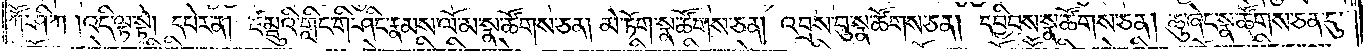ཀཽ་ཤི་ཀ །འདི་ལྟ་སྟེ། དཔེར་ན། ཛམྦུའི་གླིང་གི་ཤིང་རྣམས་ལོ་མ་སྣ་ཚོགས་ཅན། མེ་ཏོག་སྣ་ཚོགས་ཅན། འབྲས་བུ་སྣ་ཚོགས་ཅན། དབྱིབས་སྣ་ཚོགས་ཅན། ཆུ་ཞེང་སྣ་ཚོགས་ཅན་དུ་
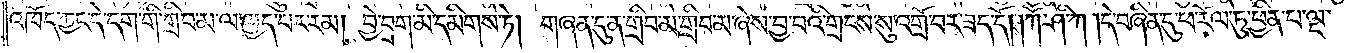འཁོད་ཀྱང་དེ་དག་གི་གྲི་བ་མ་ལ་ཁྱད་པར་རམ། བྱེ་བྲག་མི་དམིགས་ཏེ། གཞན་དུ་ན་གྲིབ་མ་གྲིབ་མ་ཞེས་བྱ་བའི་གྲངས་སུ་འགྲོ་བར་ཟད་དོ། །ཀཽ་ཤི་ཀ །དེ་བཞིན་དུ་ཕ་རོལ་ཏུ་ཕྱིན་པ་ལྔ་
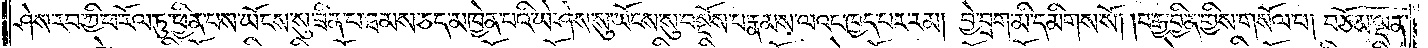ཤེས་རབ་ཀྱི་ཕ་རོལ་ཏུ་ཕྱིན་པས་ཡོངས་སུ་ཟིན་པ་ཐམས་ཅད་མཁྱེན་པའི་ཡེ་ཤེས་སུ་ཡོངས་སུ་བསྔོས་པ་རྣམས་ལའང་ཁྱད་པར་རམ། བྱེ་བྲག་མི་དམིགས་སོ། །བརྒྱ་བྱིན་གྱིས་གསོལ་པ། བཅོམ་ལྡན་
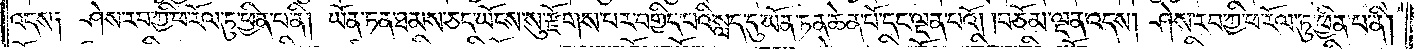འདས༑ ཤེས་རབ་ཀྱི་ཕ་རོལ་ཏུ་ཕྱིན་པ་ནི། ཡོན་ཏན་ཐམས་ཅད་ཡོངས་སུ་རྫོགས་པར་བགྱིད་པའི་སླད་དུ་ཡོན་ཏན་ཆེན་པོ་དང་ལྡན་པའོ། །བཅོམ་ལྡན་འདས། ཤེས་རབ་ཀྱི་ཕ་རོལ་ཏུ་ཕྱིན་པ་ནི།
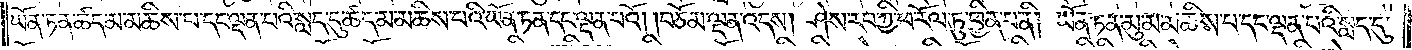ཡོན་ཏན་ཚད་མ་མཆིས་པ་དང་ལྡན་པའི་སླད་དུ་ཚད་མ་མཆིས་པའི་ཡོན་ཏན་དང་ལྡན་པའོ། །བཅོམ་ལྡན་འདས། ཤེས་རབ་ཀྱི་ཕ་རོལ་ཏུ་ཕྱིན་པ་ནི། ཡོན་ཏན་མུ་མ་མཆིས་པ་དང་ལྡན་པའི་སླད་དུ་
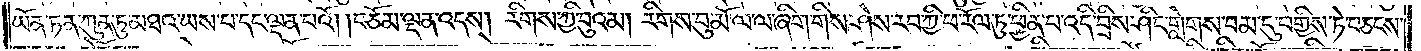ཡོན་ཏན་ཀུན་ཏུ་མཐའ་ཡས་པ་དང་ལྡན་པའོ། །བཅོམ་ལྡན་འདས། རིགས་ཀྱི་བུའམ། རིགས་ཀྱི་བུ་མོ་ལ་ལ་ཞིག་གིས། ཤེས་རབ་ཀྱི་ཕ་རོལ་ཏུ་ཕྱིན་པ་འདི་བྲིས་ཤིང་གླེགས་བམ་དུ་བགྱིས་ཏེ་བཅངས་
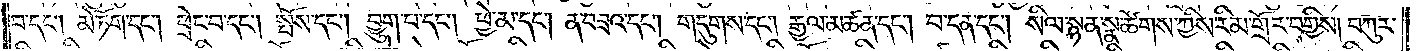བ་དང༌། མེ་ཏོག་དང༌། ཕྲེང་བ་དང༌། སྤོས་དང༌། བྱུག་པ་དང༌། ཕྱེ་མ་དང༌། ན་བཟའ་དང༌། གདུགས་དང༌། རྒྱལ་མཚན་དང༌། བ་དན་དང༌། སིལ་སྙན་སྣ་ཚོགས་ཀྱིས་རིམ་གྲོར་བགྱིས། བཀུར་
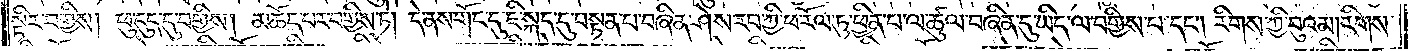སྟིར་བགྱིས། ཕུ་དུད་དུ་བགྱིས། མཆོད་པར་བགྱིས་ཏེ། དེ་ནས་གོང་དུ་ཇི་སྐད་དུ་བསྟན་པ་བཞིན་ཤེས་རབ་ཀྱི་ཕ་རོལ་ཏུ་ཕྱིན་པ་ལ་ཚུལ་བཞིན་དུ་ཡིད་ལ་བགྱིས་པ་དང༌། རིགས་ཀྱི་བུའམ། རིགས་
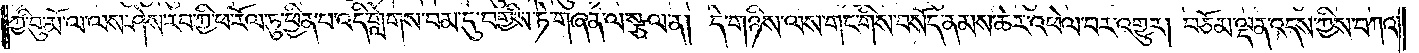ཀྱི་བུ་མོ་ལ་ལས་ཤེས་རབ་ཀྱི་ཕ་རོལ་ཏུ་ཕྱིན་པ་འདི་གླེགས་བམ་དུ་བགྱིས་ཏེ་གཞན་ལ་སྩལ་ན། དེ་གཉིས་ལས་གང་གིས་བསོད་ནམས་ཆེར་འཕེལ་བར་འགྱུར། བཅོམ་ལྡན་འདས་ཀྱིས་བཀའ་
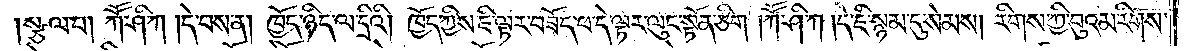སྩལ་པ། ཀཽ་ཤི་ཀ །དེ་བས་ན། ཁྱོད་ཉིད་ལ་དྲིའི། ཁྱོད་ཀྱིས་ཇི་ལྟར་བཟོད་པ་དེ་ལྟར་ལུང་སྟོན་ཅིག །ཀཽ་ཤི་ཀ །དེ་ཇི་སྙམ་དུ་སེམས། རིགས་ཀྱི་བུའམ་རིགས་
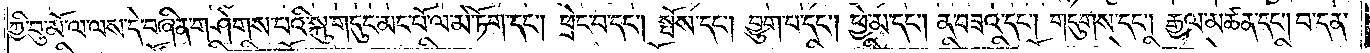ཀྱི་བུ་མོ་ལ་ལས་དེ་བཞིན་གཤེགས་པའི་སྐུ་གདུང་མང་པོ་ལ་མེ་ཏོག་དང༌། ཕྲེང་བ་དང༌། སྤོས་དང༌། བྱུག་པ་དང༌། ཕྱེ་མ་དང༌། ན་བཟའ་དང༌། གདུགས་དང༌། རྒྱལ་མཚན་དང༌། བ་དན་
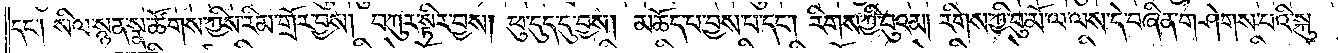དང༌། སིལ་སྙན་སྣ་ཚོགས་ཀྱིས་རིམ་གྲོར་བྱས། བཀུར་སྟིར་བྱས། ཕུ་དུད་དུ་བྱས། མཆོད་པ་བྱས་པ་དང༌། རིགས་ཀྱི་བུའམ། རིགས་ཀྱི་བུ་མོ་ལ་ལས་དེ་བཞིན་གཤེགས་པའི་སྐུ་
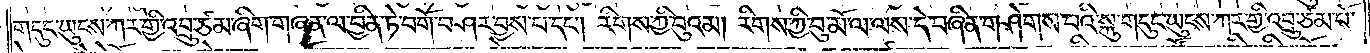གདུང་ཡུངས་ཀར་གྱི་འབྲུ་ཙམ་ཞིག་གཞན་ལ་བྱིན་ཏེ་བགོ་བཤར་བྱས་པ་དང༌། རིགས་ཀྱི་བུའམ། རིགས་ཀྱི་བུ་མོ་ལ་ལས་དེ་བཞིན་གཤེགས་པའི་སྐུ་གདུང་ཡུངས་ཀར་གྱི་འབྲུ་ཙམ་པོ་
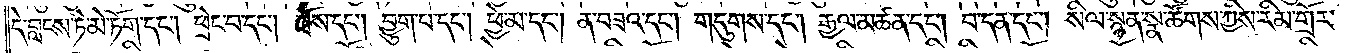དེ་བླངས་ཏེ་མེ་ཏོག་དང༌། ཕྲེང་བ་དང༌། སྤོས་དང༌། བྱུག་པ་དང༌། ཕྱེ་མ་དང༌། ན་བཟའ་དང༌། གདུགས་དང༌། རྒྱལ་མཚན་དང༌། བ་དན་དང༌། སིལ་སྙན་སྣ་ཚོགས་ཀྱིས་རིམ་གྲོར་
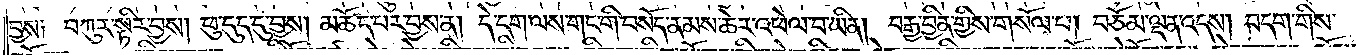བྱས། བཀུར་སྟིར་བྱས། ཕུ་དུད་དུ་བྱས། མཆོད་པར་བྱས་ན། དེ་དག་ལས་གང་གི་བསོད་ནམས་ཆེར་འཕེལ་བ་ཡིན། བརྒྱ་བྱིན་གྱིས་གསོལ་པ། བཅོམ་ལྡན་འདས། བདག་གིས་
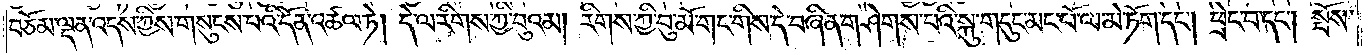བཅོམ་ལྡན་འདས་ཀྱིས་གསུངས་པའི་དོན་འཚལ་ཏེ། དེ་ལ་རིགས་ཀྱི་བུའམ། རིགས་ཀྱི་བུ་མོ་གང་གིས་དེ་བཞིན་གཤེགས་པའི་སྐུ་གདུང་མང་པོ་ལ་མེ་ཏོག་དང༌། ཕྲེང་བ་དང༌། སྤོས་
